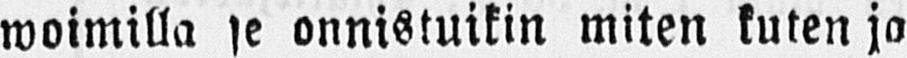woimilla se onnistuikin miten kuten ja
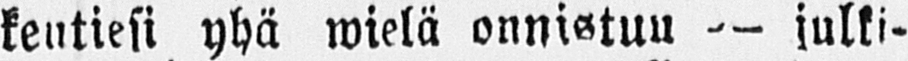keutiesi yhä wielä onnistuu — julki-
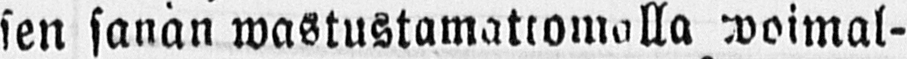sen sanan wastustamattomalla woimal-
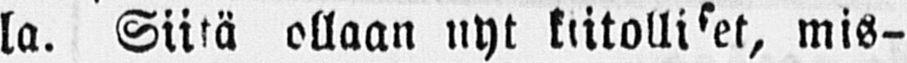la. Siitä ollaan nyt kiitolliset, mis-
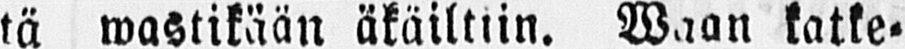tä wastikään äkäiltiin. Waan katke-
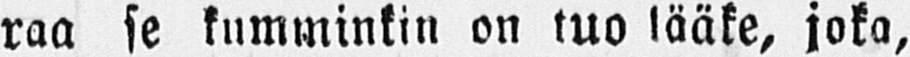raa se kumminkin on tuo lääke, joka,
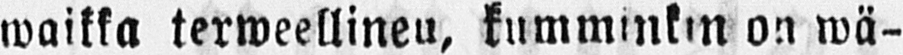waikka terweellineu, kumminkin on wä-
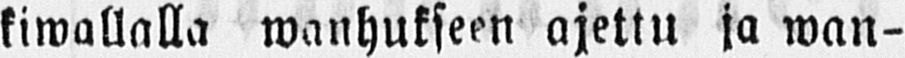kiwallalla wanhukseen ajettu ja wan-
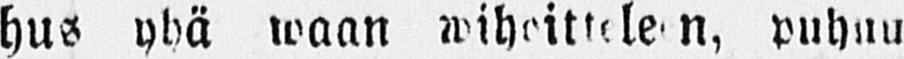hus yhä waan wihoitteleen, puhuu
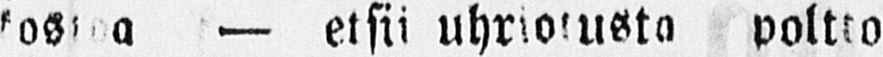kostoa — etsii uhriotusta poltto
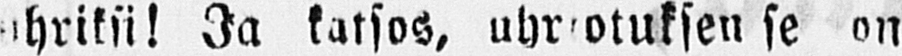ohriksi! Ja katsos, uhrotuksen se on
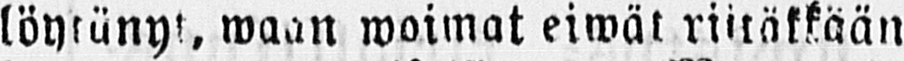löytänyt, waan woimat eiwät riitäkkään
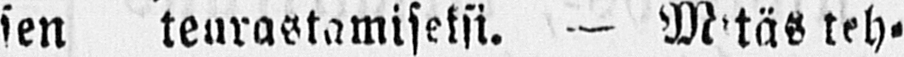sen teurastamiseksi. — Mitäs teh-
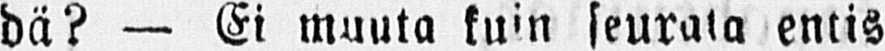dä? — Ei muuta kuin seurata entis-
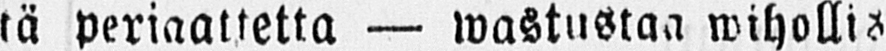tä periaattetta — wastustaa wihollis
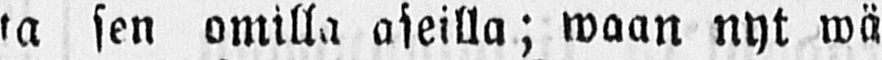ta sen omilla aseilla; waan nyt wä
